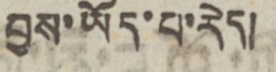བྱས་ཡོད་པ་རེད།
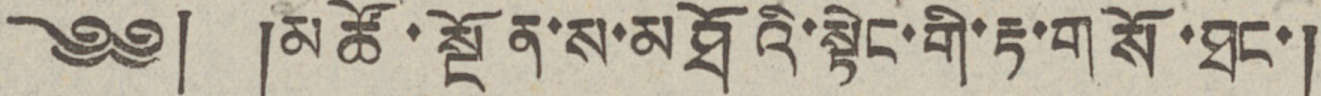༄༅། །མཚོ་སྔོན་ས་མཐོའི་སྟེང་གི་རྟ་གསོ་ཐང་།
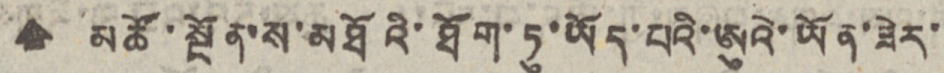🠹 མཚོ་སྔོན་ས་མཐོའི་ཐོག་ཏུ་ཡོད་པའི་ཨུའེ་ཡོན་ཟེར་
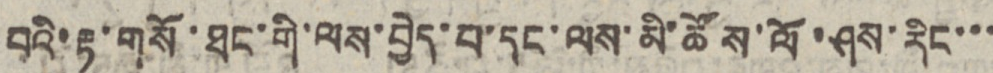བའི་རྟ་གསོ་ཐང་གི་ལས་བྱེད་པ་དང་ལས་མི་ཚོས་ལོ་ཤས་རིང་་་
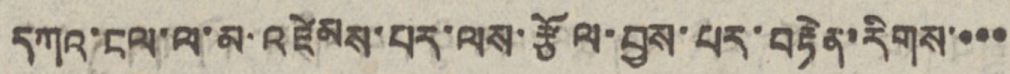དཀའ་ངལ་ལ་མ་འཛེམས་པར་ལས་རྩོལ་བྱས་པར་བརྟེན་རིགས་་་་
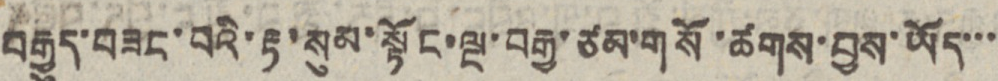བརྒྱུད་བཟང་བའི་རྟ་སུམ་སྟོང་ལྔ་བརྒྱ་ཙམ་གསོ་ཚགས་བྱས་ཡོད་་་
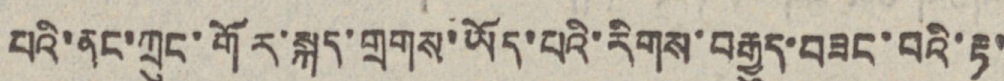པའི་ནང་ཀྲུང་གོར་སྐད་གྲགས་ཡོད་པའི་རིགས་བརྒྱུད་བཟང་བའི་རྟ་
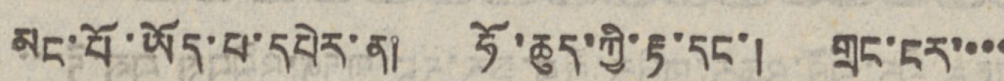མང་པོ་ཡོད་པ་དཔེར་ན། ཧོ་ཆུད་ཀྱི་རྟ་དང་། གྲང་ངར་་་་
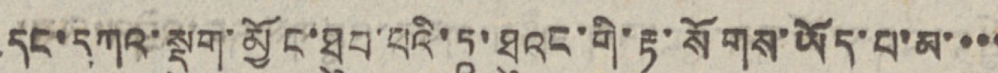དང་དཀའ་སྡུག་མྱོང་ཐུབ་པའི་ཏཱ་ཐུའང་གི་རྟ་སོགས་ཡོད་པ་མ་་་་
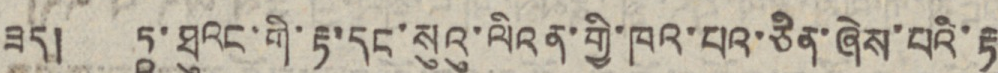ཟད། ཏཱ་ཐུའང་གི་རྟ་དང་སུའུ་ལིའན་གྱི་ཁའ་པའ་ཅིན་ཞེས་པའི་རྟ
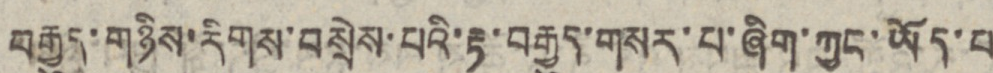བརྒྱུད་གཉིས་རིགས་བསྲེས་པའི་རྟ་བརྒྱུད་གསར་པ་ཞིག་ཀྱང་ཡོད་པ་
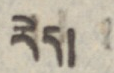རེད།
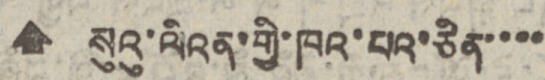🠹 སུའུ་ལིའན་གྱི་ཁའ་པའ་ཅིན་་་་
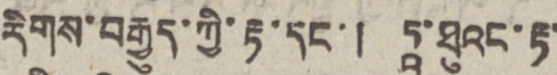རིགས་བརྒྱུད་ཀྱི་རྟ་དང་། ཏཱ་ཐུའང་རྟ་
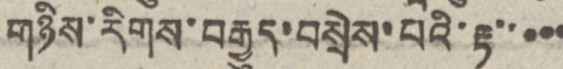གཉིས་རིགས་བརྒྱུད་བསྲེས་པའི་རྟ་་་་་
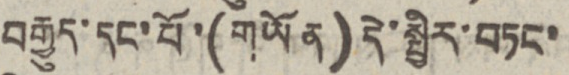བརྒྱུད་དང་པོ་(གཡོན)དེ་སྤྱིར་བཏང་
